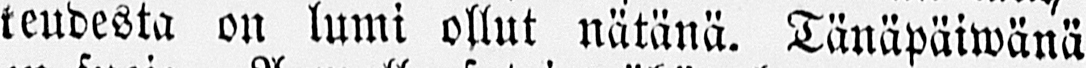keudesta on lumi ollut nätänä. Tänäpäiwänä
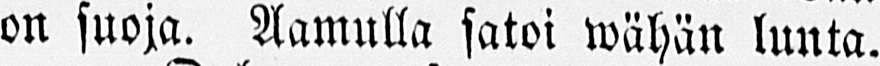on suoja. Aamulla satoi wähän lunta.
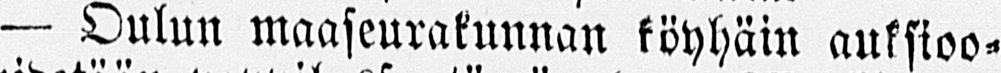— Oulun maaseurakunnan köyhäin auksioo-
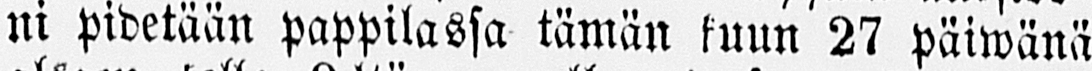ni pidetään pappilassa tämän kuun 27 päiwänä
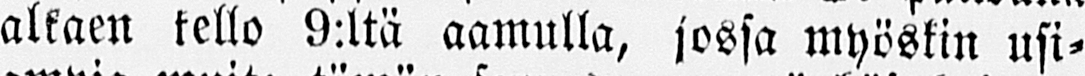alkaen kello 9:ltä aamulla, jossa myöskin usi-
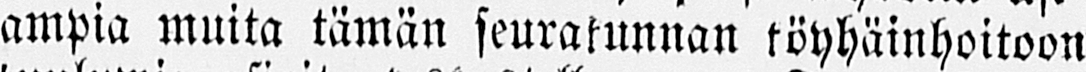ampia muita tämän seurakunnan köyhäinhoitoon
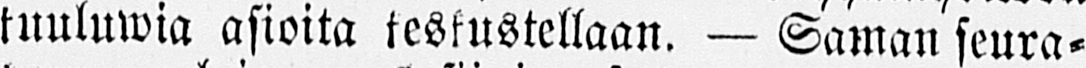kuuluwia asioita keskustellaan. — Saman seura-
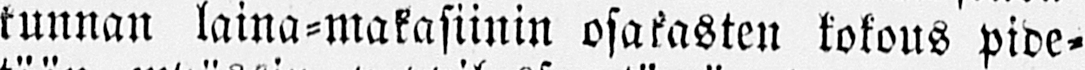kunnan laina-makasiinin osakasten kokous pide-
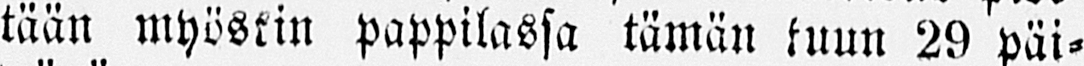tään myöskin pappilassa tämän kuun 29 päi-
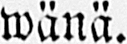wänä.
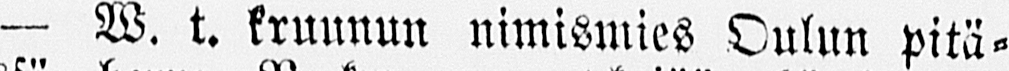— W. t. kruunun nimismies Oulun pitä-
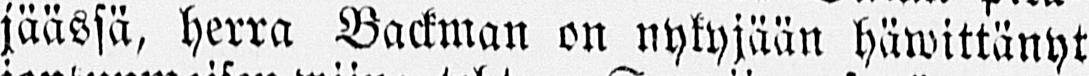jäässä, herra Backman on nykyjään häwittänyt
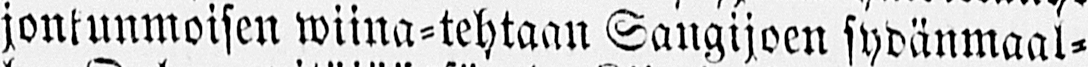jonkunmoisen wiina-tehtaan Sangijoen sydänmaal-
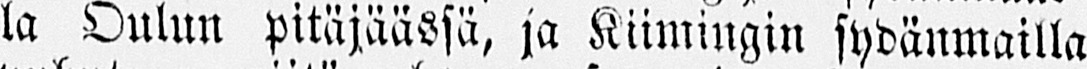la Oulun pitäjäässä, ja Kiimingin sydänmailla
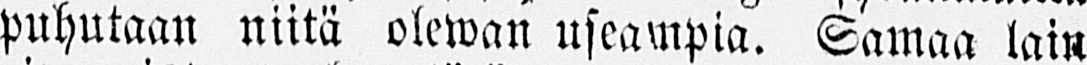puhutaan niitä olewan useampia. Samaa lain
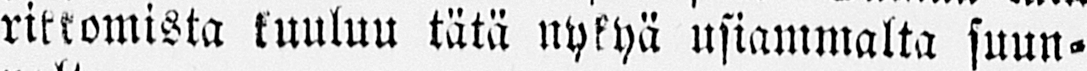rikkomista kuuluu tätä nykyä usiammalta suun-
